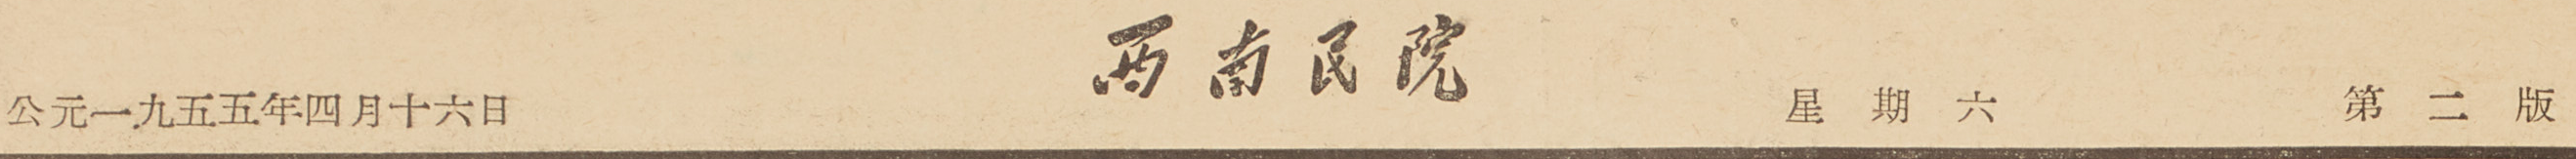公元一九五五年四月十六日 西南民院 星期六 第二版
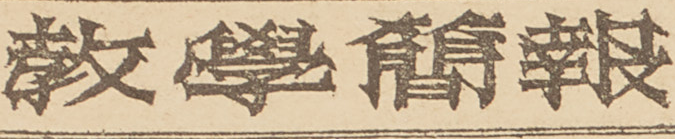教學簡報
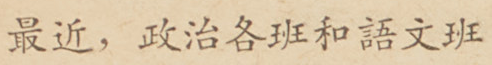最近，政治各班和語文班
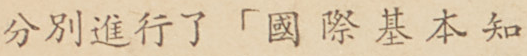分別進行了「國際基本知
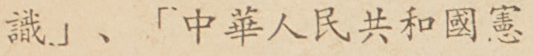識」、「中華人民共和國憲
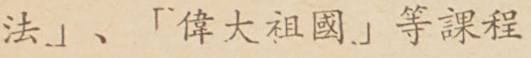法」、「偉大祖國」等課程
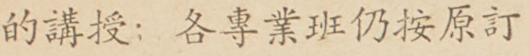的講授：各專業班仍按原訂
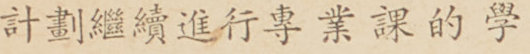計劃繼續進行專業課的學
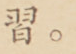習。
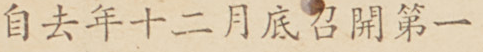自去年十二月底召開第一
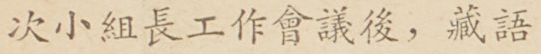次小組長工作會議後，藏語
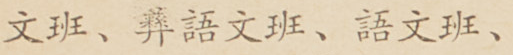文班、彝語文班、語文班、
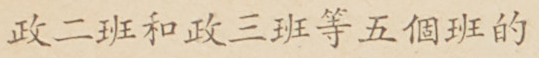政二班和政三班等五個班的
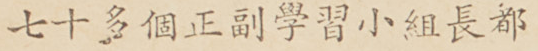七十多個正副學習小組長都
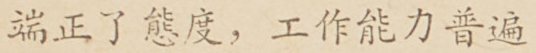端正了態度，工作能力普遍
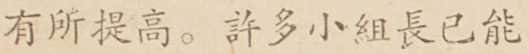有所提高。許多小組長已能
